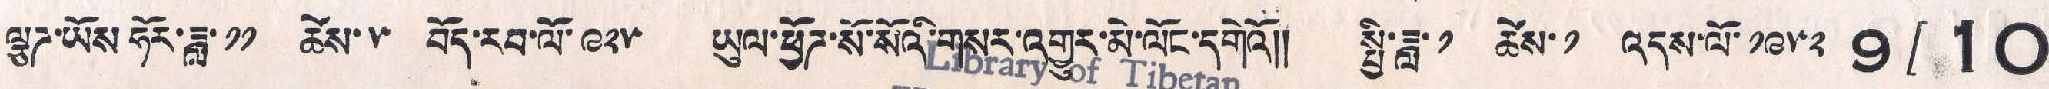ལྕཊ་ཡོས ཧོར་ཟླ་ ༡༡ ཚེས་ ༥ བོད་རབ་ལོ་ ༩༢༥ ཡུལ་ཕྱོཊ་སོ་སོའི་གསར་འགྱུར་མེ་ལོང་དགེའོ།། སྤྱི་ཟླ་ ༡ ཚེས་ ༡ འདས་ལོ་ ༡༩༥༢ 9/10
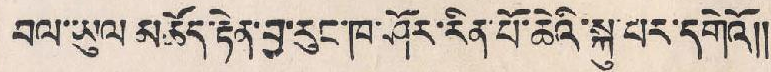བལ་ཡུལ་མཆོད་རྟེན་བྱ་རུང་ཁ་ཤོར་རིན་པོ་ཆེའི་སྐུ་པར་དགེའོ།།
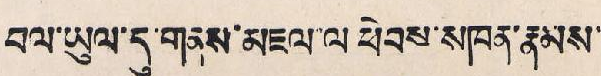བལ་ཡུལ་དུ་གནས་མཇལ་ལ ཕེབས་མཁན་རྣམས་
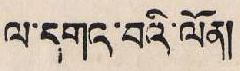ལ་དགའ་བའི་ལོན།
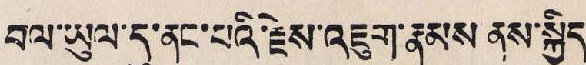བལ་ཡུལ་དུ་ནང་པའི་རྗེས་འཇུག་རྣམས ནས་སྐྱིད་
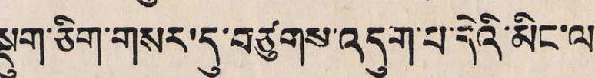སྡུག་ཅིག་གསར་དུ་བརྩུགས་འདུག་པ་དེའི་མིང་ལ་
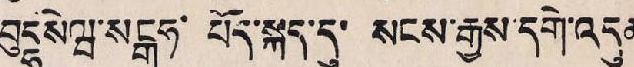བུདྷསེཝ་སངྒཧ་བོད་སྐད་དུ་སངས་རྒྱས་དགེ་འདུན་
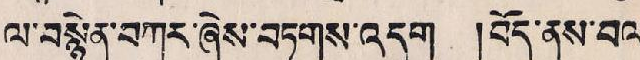ལ་བསྙེན་བཀུར་ཞེས་བཏགས་འདུག །བོད་ནས་བལ་
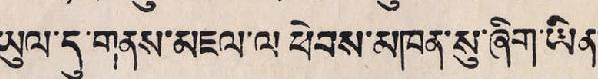ཡུལ་དུ་གནས་མཇལ་ལ ཕེབས་མཁན་སུ་ཞིག་ཡིན་
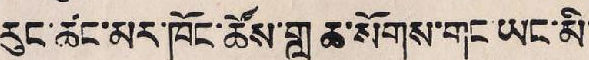རུང་ཚང་མང་ཁོང་ཚོས་གླ ཆ་སོགས་གང་ཡང་མི་
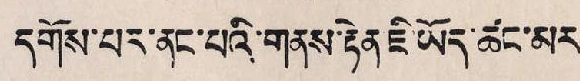དགོས་པར་ནང་པའི་གནས་རྟེན་ཇི་ཡོད་ཚང་མར་
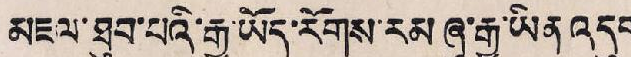མཇལ་ཐུབ་པའི་རྒྱུ་ཡོད་རོགས་རམ་ཞུ་རྒྱུ་ཡིན་འདུག་
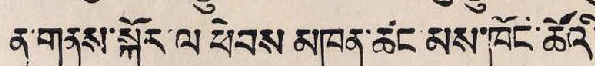ན་གནས་སྐོར་ལ ཕེབས མཁན་ཚང་མས་ཁོང་ཚོའི་
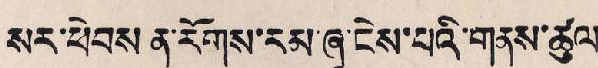སར་ཕེབས ན་རོགས་རམ་ཞུ་ངེས་པའི་གནས་ཚུལ།།
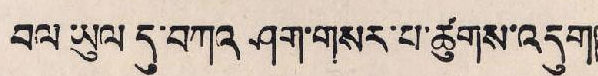བལ་ཡུལ་དུ་བཀའ ཤག་གསར་པ་ཚུགས་འདུག།
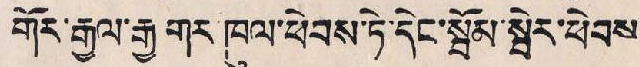གོར་རྒྱལ་རྒྱ་ གར ཁུལ་ཕེབས་ཏེ་དེང་སྦོམ་སྦེར་ཕེབས་
